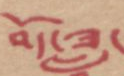བོད་ཟླ་
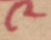༩
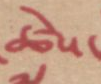ཚེས་
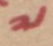༧
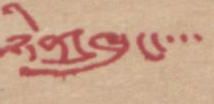ཉིན་ཁྲུང་་་་
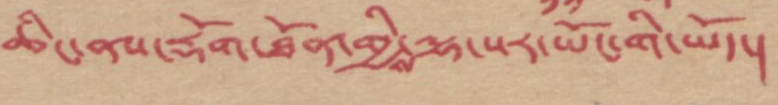ཆིང་ནས་རྡོག་ཐོན་གྱིས་ལྷ་སར་ཡོང་གི་ཡོད།
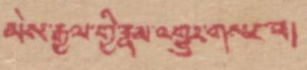མེས་རྒྱལ་གྱི་རྣམ་འགྱུར་གསར་པ།
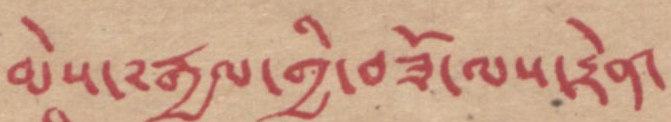མེས་༸རྒྱལ་གྱི་བཟོ་ལས་རྟེན་
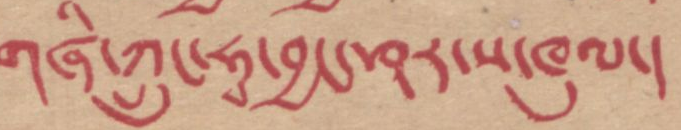གཞི་ཀྲུང་ཧྭ་བྱང་ཤར་ས་ཁུལ།
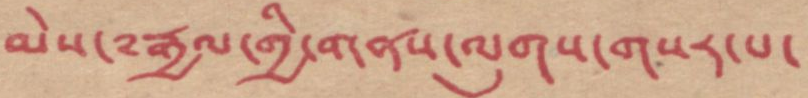མེས་༸རྒྱལ་གྱི་གནས་ལུགས་གསར་པ།
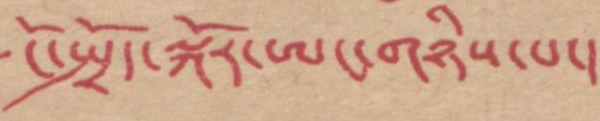ངོ་སྤྲོད་སྐོར་ཨང་གཉིས་པ།
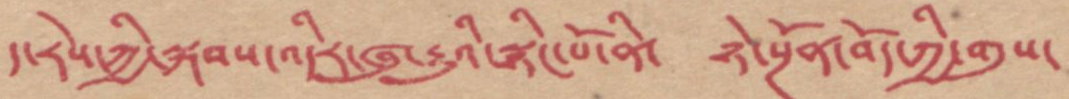ད་རེས་ཀྱི་སྐབས་འདིར་ཞུ་རྒྱུའི་སྙིང་པོ་ནི་ ཉེ་སྔོན་བོད་ཀྱི་གུས་
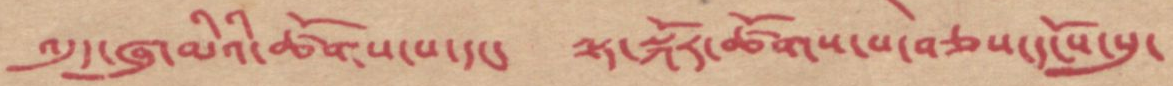འདུད་ཞུ་མིའི་ཚོགས་པ་དང་ ལྟ་སྐོར་ཚོགས་པ་བཅས་དངོས་སུ་
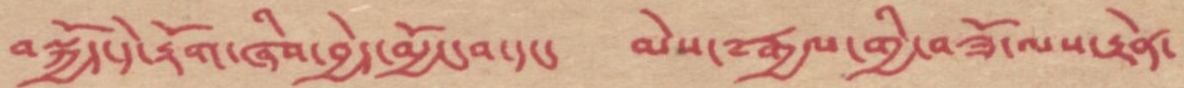བསྐྱོད་དེ་རྟོག་ཞིབ་བྱེད་མྱོང་བ་དང་ མེས་༸རྒྱལ་གྱི་བཟོ་ལས་རྟེན་
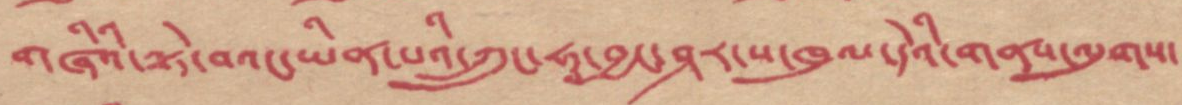གཞིའི་སྟེ་བའང་ཡིན་པའི་ཀྲུང་ཧྰ་བྱང་ཤར་ས་ཁུལ་དེའི་གནས་ལུགས་
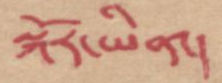སྐོར་ཡིན།
